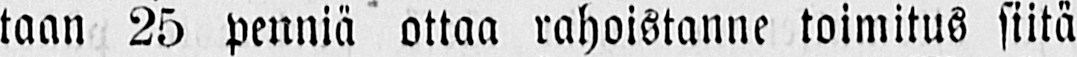taan 25 penniä ottaa rahoistanne toimitus siitä
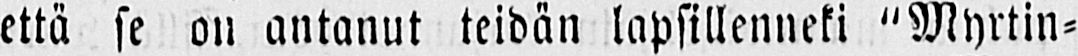että se on antanut teidän lapsillenneki "Myrtin-
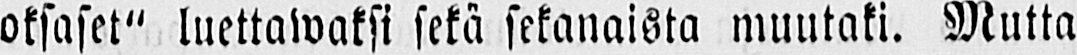oksaset" luettawaksi sekä sekanaista muutaki. Mutta
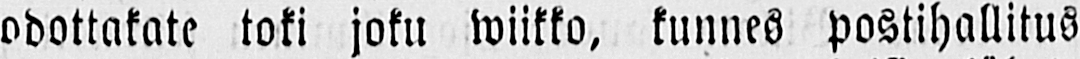odottakate toki joku wiikko, kunnes postihallitus
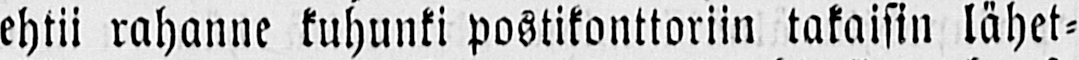ehtii rahanne kuhunki postikonttoriin takaisin lähet-
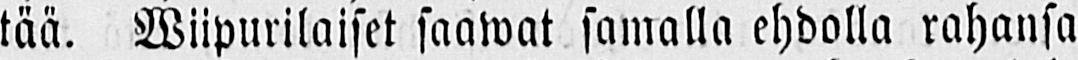tää. Wiipurilaiset saawat samalla ehdolla rahansa
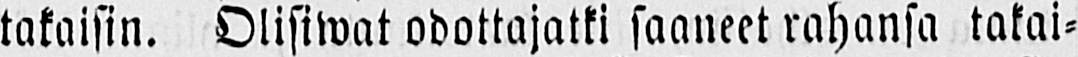takaisin. Olisiwat odottajatki saaneet rahansa takai-
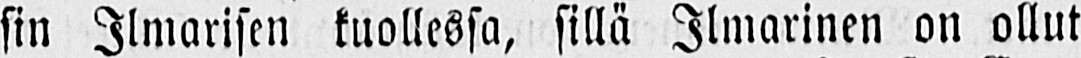sin Ilmarisen kuollessa, sillä Ilmarinen on ollut
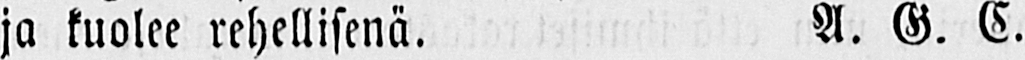ja kuolee rehellisenä. A. G. C.
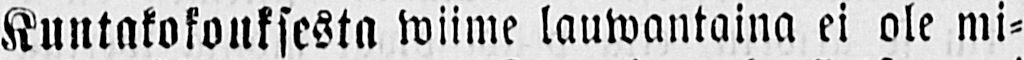Kuntakokouksesta wiime lauwantaina ei ole mi-
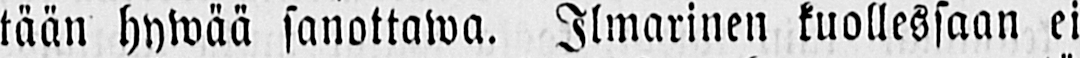tään hywää sanottawa. Ilmarinen kuollessaan ei
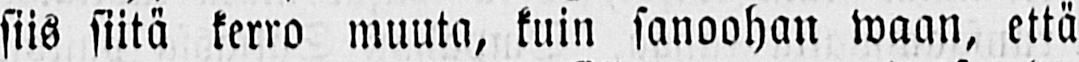siis siitä kerro muuta, kuin sanoohan waan, että
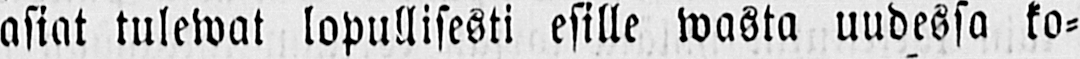asiat tulewat lopullisesti esille wasta uudessa ko-
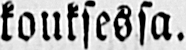kouksessa.
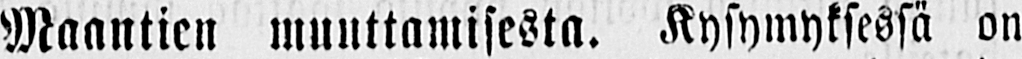Maantien muuttamisesta. Kysymyksessä on
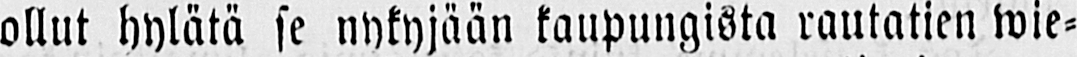ollut hylätä se nykyjään kaupungista rautatien wie-
